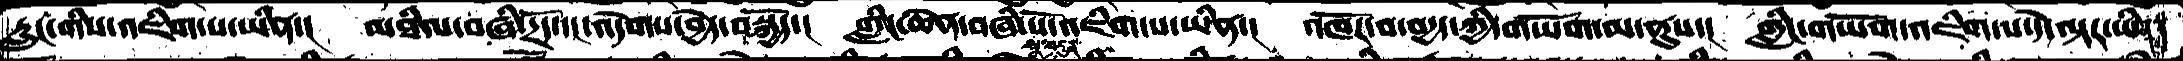རླང་གིས་འཇིག་པ་ཡིན་།  མཐིལ་བཞི་དྲོད་དང་འདེགས་བྱེད་བསྐྱོད་།  གླིང་ཆེན་བཞི་པོ་འཇིག་པ་ཡིན་།  འཁོར་བ་བདྱད་ཀྱི་གཡོག་མ་ནུས་།  གླིང་གཡོག་འཇིག་པ་དེ་ལྟར་ཡིན་
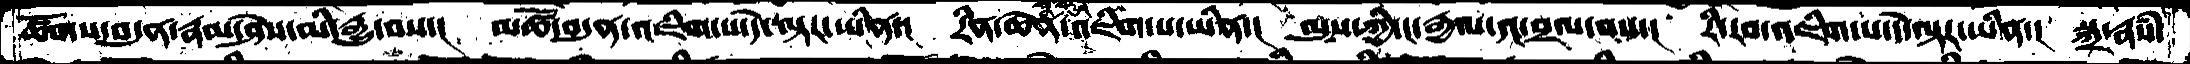ཚོགས་བདུན་རྣམ་ཤེས་མི་རྒྱུ་བས་།  མཚོ་བདུན་འཇིག་པ་དེ་ལྟར་ཡིན་།  རིན་ཆེན་སྣ་བདུན་འཇིག་པ་ཡིན་།  ལུས་ཀྱི་ང་རྒྱལ་དང་བྲལ་བས་།  རི་རབ་འཇིག་པ་དེ་ལྟར་ཡིན་།  སྐྲ་རྣསཾ་
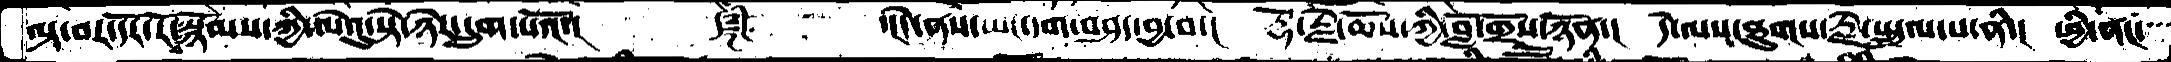ལྟ་བར་དོར་རོ་བསྙོམས་ཀྱི་ལེའུ་སྟེ་ཉེར་དྲུག་པའོ་།     ༼༈༽   ་།དེ་ནས་ཡང་དག་བཤད་བྱ་བ་། རྡོ་རྗེ་ཆོས་ཀྱི་བློ་གྲོས་ཉོན་། དེ་ལས་ཐུགས་རྗེ་སྤྲུལ་པ་ནི་། ཕྱི་ནང་་་
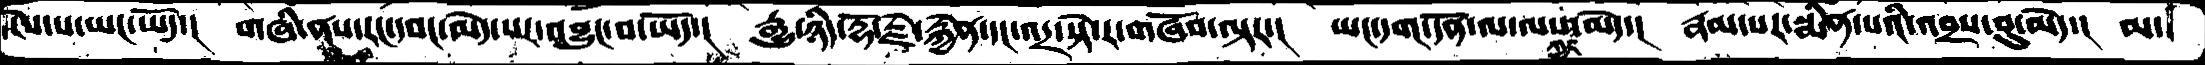ངེས་པ་ཡང་ཡོད་།  གཞི་ནས་རང་དབང་མེད་པར་འབྱུང་བ་ཡོད་། རྒྱུ་ཉིད་རྡོ་རྗེ་རྐྱེན་དང་འདྲ་སྟེ་ར་གཞོབ་ལྟར་། ཡང་དག་དོན་ལ་ལས་ཀྱང་མེད་། རྣམ་པར་སྨིན་པའི་འབྲས་བུ་མེད་། མ་
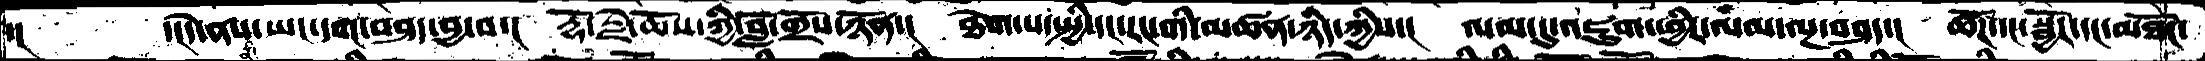་།    ་།དེ་ནས་ཡང་དག་བཤད་བྱ་བ་། རྡོ་རྗེ་ཆོས་ཀྱི་བློ་གྲོས་ཉོན་། ཐེག་པ་སྤྱི་དང་རང་གི་མཚན་ཉིད་ཀྱིས་། ལམ་དུ་འཇུག་ཕྱིར་ལམ་ལྔ་བཤད་། ཚོཌ་དང་སྦྱོར་དང་མཐོང་
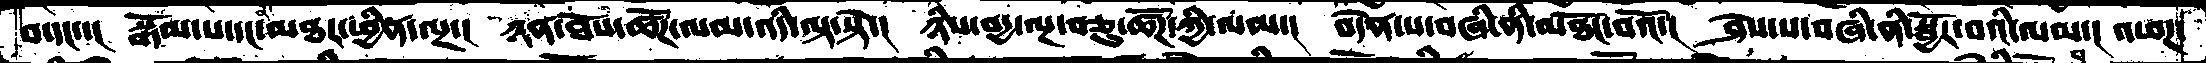བ་དང་་། སྒོམ་པ་དང་ནི་མཐར་ཕྱིན་ལྔ་། ཉན་ཐོས་ཚོཌ་ལམ་འདི་ལྟ་སྟེ་། ཉིས་བདྱ་ལྔ་བཅུ་ཚོཌ་ཀྱི་ལམ་། བདེན་པ་བཞི་ནི་མཐོང་བའོ་། ཤེས་པ་བཞི་ནི་སྦྱོར་བའི་ལམ་། འཕཌ་
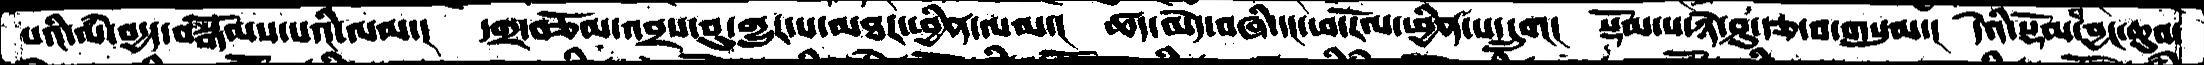པའི་ལཾ་བདྱད་བསྒོམས་པའི་ལམ་། དགྲ་བཅོམ་འབྲས་བུ་གྱུར་པ་མཐར་ཕྱིན་ལམ་། ཚད་མེད་བཞི་དང་ཕ་རོལ་ཕྱིན་པ་དྲུག། སྡོམ་པ་ཉེ་ཤུ་རྩ་བ་གསུམ་། དེའི་སྡོམ་པ་བྱང་ཆུབ་
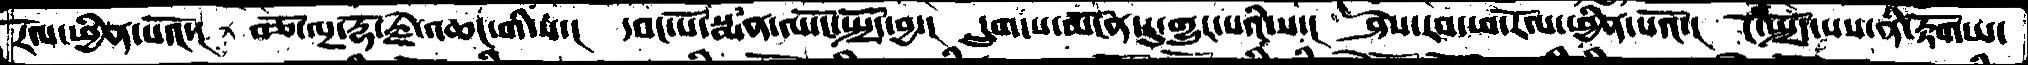རོལ་ཕྱིན་པའོ་།  བཅོ་ལྔ་རྡོ་རྗེ་འཆང་གི་ས་།  དབང་པོ་སྨན་ལ་ངོ་སྤྲོད་བྱ་།  དྲུག་པ་མངོན་དུ་གྱུར་པའི་ས་།  ཤེས་རབ་ཕ་རོལ་ཕྱིན་པའོ་།  ངོ་སྤྲོད་པས་ནི་རྟོག་པ་
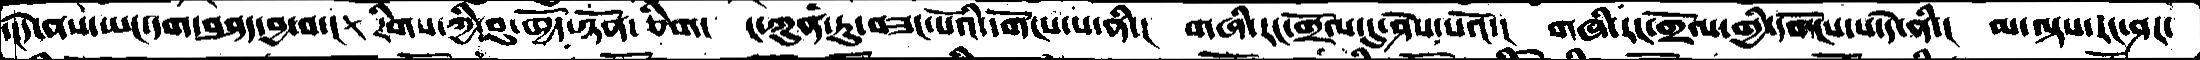་།དེ་ནས་ཡང་དག་བཤད་བྱ་བ་།  རིགས་ཀྱི་བུ་ཁྱོད་ཉོན་ཅིག།  ང་ཀུན་ཏུ་བཟང་པོའི་དགོངས་པ་ནི་།  གཞི་རང་གྲོལ་དུ་ཤེས་པའོ་།  གཞི་རང་གྲོལ་གྱི་དགོངས་པ་དེ་ནི་།  མ་ལྟས་རང་ཤར་
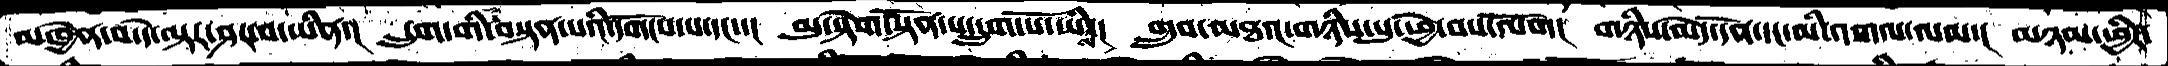མཁྱེན་པ་དེ་ལྟར་ཤར་བ་ཡིན་།  དྲུག་གི་བསྟན་པའི་དགོངས་པ་དང་་།  མུ་སྟེག་སྟོན་པ་དྲུག་པོ་ཡིས་།  གྲུབ་མཐའ་གཉིས་སུ་ཕྱེ་བས་ལོག།  གཉིས་མེད་དོན་དང་མི་འགལ་ལམ་།  མཉམ་ཕྱིར་
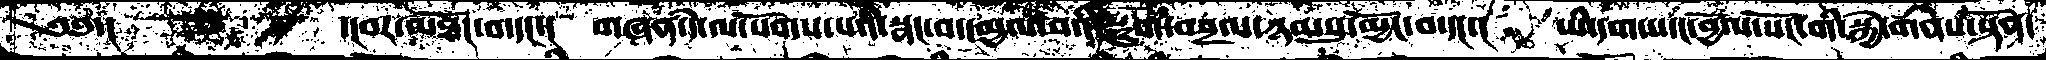༄༅་།    ་།བར་མཐོང་བ་དང་།  གཞན་དེ་ལ་སོགས་པའི་སྣང་བ་དམྱལ་བའི་སྡུག་བསྔལ་ཉམསུ་མྱོང་བ་དང་།  ཡི་དགས་དང་བྱོལ་སོང་གི་སྐྱེ་གནས་སྟོན་
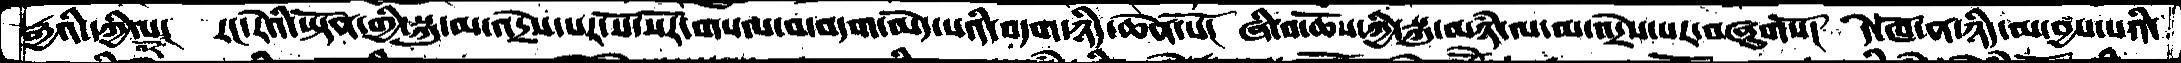རྒྱའི་དཀྱིལ་འོར་།  རང་རེའི་ཡྟོན་གྱི་སྐུ་མ་འདྲེས་པར་སོ་སོར་གསལ་བ་བདག་མེད་པའི་བདག་ཉིད་ཆེན་པོ།  ཞི་བ་ཆོས་ཀྱི་སྐུ་མཉཾ་ལ་མའདྲེས་པར་བཞུགསོ།  དེ་ཁོ་ན་ཉིད་མ་བྱས་པའི་
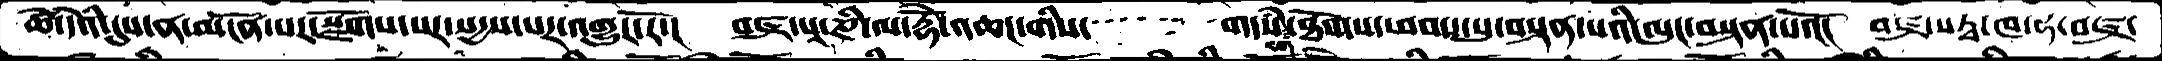ཚེ་དེའི་དུས་ན་མངོན་པར་སྫོགས་པར་སདྱས་པར་འགྱུར་རོ་།  བཛྲ་པཱ་ཎི་ལ་རྡོེ་འཆང་གིས་་་་་གདསཾ་ངག་ཐོགས་ཕབས་སུ་བསྟན་པའི་ལུང་བསྟན་པའོ་།  བཛྲ་སཏྭ་ཁ་ཧ་བཛྲ་
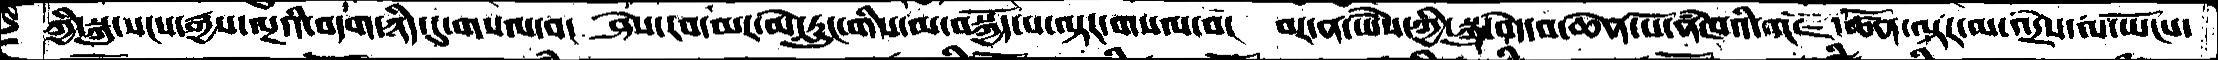ཀྱི་སྐུ་སངས་རྒྱས་ལྔའི་བདག་ཉིད་དུ་གསལ་བ།  ཤེས་རབ་མར་མེ་རླུང་གིས་མ་བསྐྱོད་པ་ལྟར་གསལ་བ།  བར་ན་ཡཻས་ཀྱི་སྐུ་བདེ་བ་ཆེན་པོ་ནཾཁའི་འཇ་ཚོན་ལྟར་མ་འདྲེས་ལ་ཡོངས་
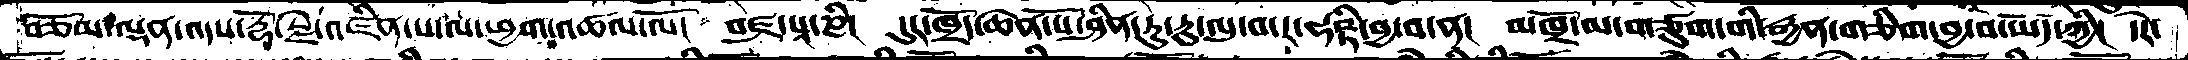བཅོམ་ལྡན་འདས་རྡོ་རྗེ་འཛིན་པ་ལ་ཕྱག་འཚལ་ལོ།  བཛྲ་པཱ་ཎི།  དུར་ཁྲོད་ཆེན་པོ་ཤིན་ཏུ་རུ་ལུ་བ་ར་ཧཥྟི ་བྱ་བ་ན།  མཁྲོ་མ་གཙུག་གི་རྒྱན་གཅིག་བྱ་བ་ཡོད་ཀྱི།  དེར་
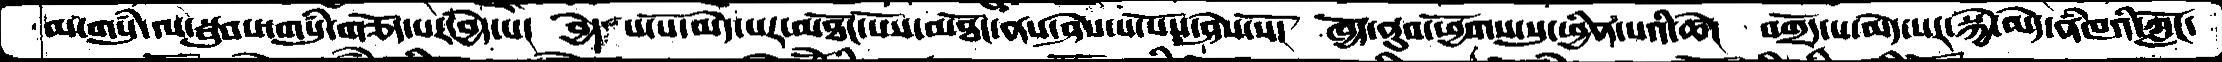མ་གསུཾ་ལ་སྦུབས་གསུཾ་གཅོད་པར་བྱེད་པ།  བྱེད་པ་པོ་མེད་པར་མཐོང་པོས་མཐོང་ནས་ཤེས་པ་པོས་ཤེས་སོ།  ཁྱོད་ནུབ་ཕྱོགས་སུ་ཕྱིན་པའི་ཚེ།  བགྲོད་པ་མེད་པར་སྐྱེ་མེད་ནཾཁའི་ཀློང་
